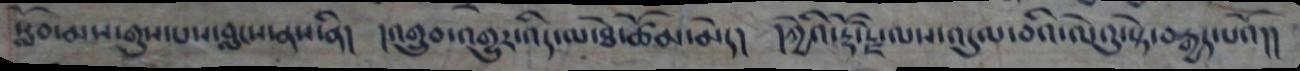སློབ་མས་གུས་པས་བླངས་ནས་ནི། །འགྲུབ་འགྱུར་འདི་ལ་ཐེ་ཚོམ་མེད། །ཀྱེའི་རྡོ་རྗེ་ལས་འདུལ་བའི་ལེའུ་སྟེ་བརྒྱད་པའོ།།
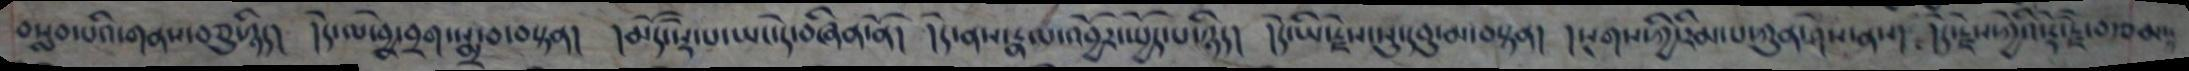བསླབ་པའི་གནས་བཅུ་ཉིད། །དེ་ལ་བྱེ་བྲག་སྨྲ་བ་བསྟན། །མདོ་སྡེ་པ་ཡང་དེ་བཞིན་ནོ། །དེ་ནས་རྣལ་འབྱོར་སྤྱོད་པ་ཉིད། །དེ་ཡི་རྗེས་སུ་དབུ་མ་བསྟན། །སྔགས་ཀྱི་རིམ་པ་ཀུན་ཤེས་ནས། །དེ་རྗེས་ཀྱེའི་རྡོ་རྗེ་བརྩམ
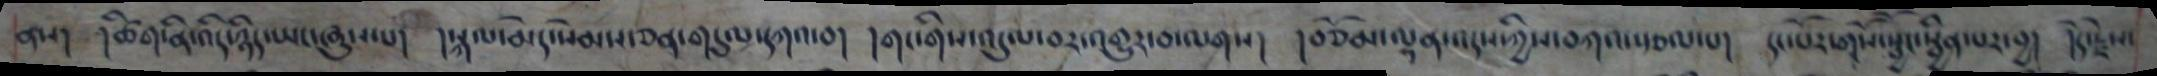ནས། །ཚིག་ནི་འདི་ཉིད་ཡང་ཞུས་པ། །སྐལ་མེད་སེམས་ཅན་གདུལ་དཀའ་བ། །གང་གིས་འདུལ་བར་འགྱུར་བ་ལགས། །བཅོམ་ལྡན་འདས་ཀྱིས་བཀའ་སྩལ་པ། དང་པོར་གསོ་སྦྱོང་སྦྱིན་པར་བྱ། །དེ་རྗེས་
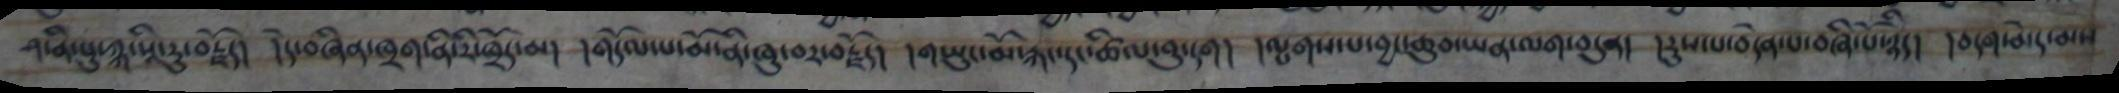ཤ་ནི་པུ་ཀྐ་སཱི་རུ་བརྗོད། །དེ་བཞིན་ཁྲག་ནི་རི་ཁྲོད་མ། །གདོལ་པ་མོ་ནི་ཞུ་བར་བརྗོད། །གཡུང་མོ་རྐང་དང་ཚིལ་བུ་དག། །ལྤགས་པ་བྱང་ཆུབ་ཡན་ལག་བདུན། །རུས་པ་བདེན་པ་བཞི་པོ་ཉིད། །བདག་མེད་མས
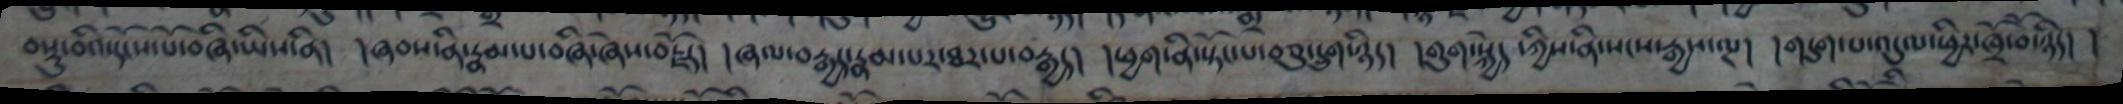བསྡུ་བའི་དངོས་པོ་བཞི་ཡིས་ནི། །ཞབས་ནི་རྣམ་པ་བཞི་ཞེས་བརྗོད། །ཞལ་བརྒྱད་རྣམ་པར་ཐར་པ་བརྒྱད། །ཕྱག་ནི་སྟོང་པ་བཅུ་དྲུག་ཉིད། །གུག་སྐྱེད་ཀྱིས་ནི་སངས་རྒྱས་ལྔ། །གདུག་པ་འདུལ་ཕྱིར་ཁྲོ་བོ་ཉིད། །
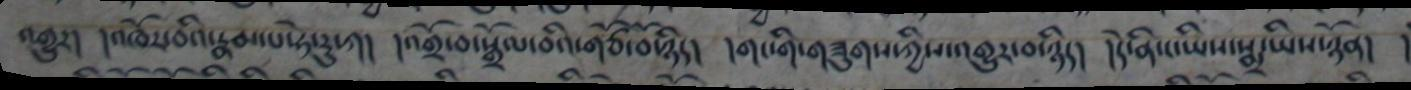འགྱུར། །འཁོར་བའི་རྣམ་པ་ཧེ་རུ་ཀ། །འགྲོ་བ་སྒྲོལ་བའི་གཙོ་བོ་ཉིད། །གང་གི་གཟུགས་ཀྱིས་འགྱུར་བ་ཉིད། །དེ་ནི་ང་ཡིས་སྨྲ་ཡིས་ཉོན། །
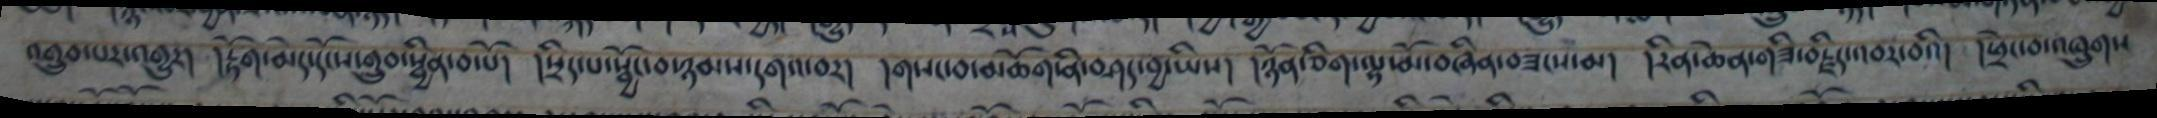འགྲུབ་འགྱུར། །རྟོག་མེད་དངོས་གྲུབ་སྦྱིན་བ་པོ། །སྲིད་པ་སྦྱོང་བ་ཉམས་དགའ་བ། །གསང་བ་མཆོག་ནི་བཤད་བྱ་ཡིས། །ཉོན་ཅིག་ལྷ་མོ་བཞིན་བཟངས་མ། །རིན་ཆེན་གཟི་བརྗིད་འབར་བའི། །ཕྲེང་བ་འཁྲུགས
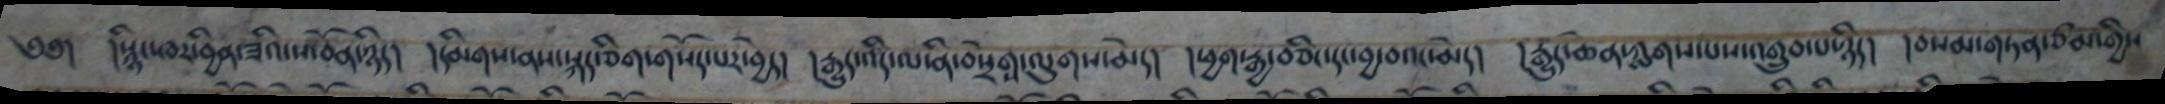༄༅། །སྙིང་ཁར་བྱིན་ཟའི་ས་བོན་ཉིད། །དམིགས་ནས་སྐད་ཅིག་གསོད་པ་བྱེད། །རྒྱུད་འདི་ལ་ནི་བསྲེགས་ལུགས་མེད། །ཕྱག་རྒྱ་བཅིང་དང་བྱ་བའང་མེད། །རྒྱུད་ཆེན་ཀླགས་པས་འགྲུབ་པ་ཉིད། །བསམ་གཏན་ཙམ་གྱིས
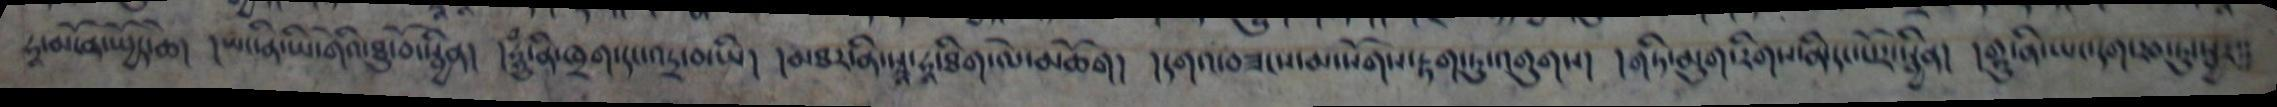ཧཱ་མངོན་སྤྱོད་ཆེ། །ཡང་ནི་ཡེ་གེའི་ཐུ་བོ་སྦྱིན། །ཧཱུཾ་ནི་ཁྲག་དང་འདྲ་བ་ཡི། །མཐར་ནི་སྭཱ་ཧཱ་ཐིག་ལེ་མཆོག། །དགའ་བཟངས་མ་སོགས་རྟག་ཏུ་འགུགས། །གཏི་མུག་རིས་ནི་དང་པོར་སྦྱིན། །གྷུ་ནི་ཡང་དག་རབ་ཏུ་སྦྱར་
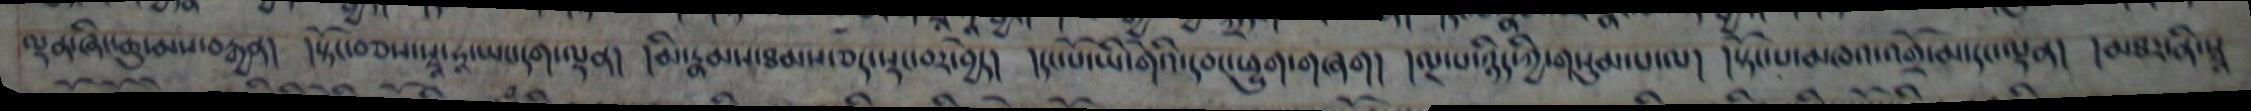ལྡན་ཞིང་ཆུ་མས་བརྒྱན། །སྟོང་བཅས་སྭཱ་ཧཱ་ཡང་དག་ལྡན། །མི་རྣམས་ཐམས་ཅད་སྡང་བར་བྱེད། །དང་པོ་ཡི་གེའི་དབང་ཕྱུག་གཞག། །ལྔ་པ་ཉིད་ཀྱི་གསུམ་པ་ལ། །སྟོང་པ་མཁའ་འགྲོ་མ་དང་ལྡན། །མཐར་ནི་སྭཱ
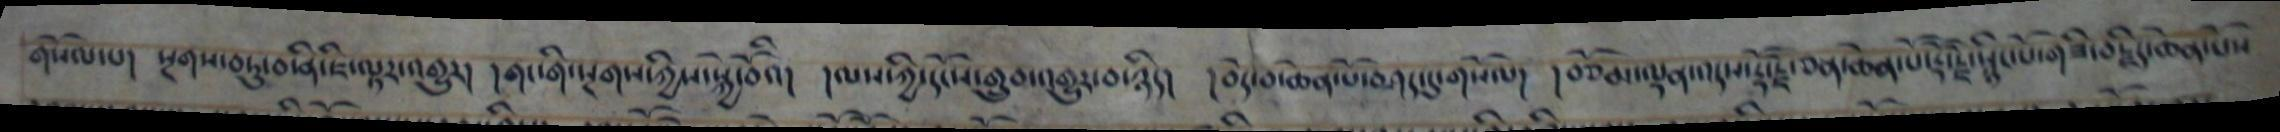གསོལ་པ། སྔགས་བཏུང་བ་ནི་ཇི་ལྟར་འགྱུར། །གང་གི་སྔགས་ཀྱིས་སྐྱེ་བོའི། །ལས་ཀྱི་དངོས་གྲུབ་འགྱུར་བ་ཉིད། །བདེ་བ་ཆེན་པོ་བཤད་དུ་གསོལ། །བཅོམ་ལྡན་འདས་རྡོ་རྗེ་ཅན་ཆེན་པོ་རྡོ་རྗེ་སྙིང་པོ་གཟི་བརྗིད་ཆེན་པོས
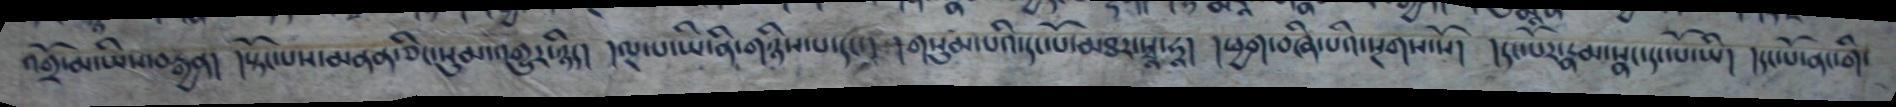འགྲོ་མ་ཡིས་བརྒྱན། །སྟོང་པས་མནན་ཅིང་སུམ་འགྱུར་ཉིད། །ལྔ་པ་ཡི་ནི་གཉིས་པ་དང་། །གསུམ་པའི་དང་པོ་མཐར་སྭཱ་ཧཱ། །ཕྱག་བཞི་པའི་སྔགས་སོ། །དང་པོར་རྣམ་སྣང་དང་པོ་ཡི། །དང་པོ་ནང་གི་
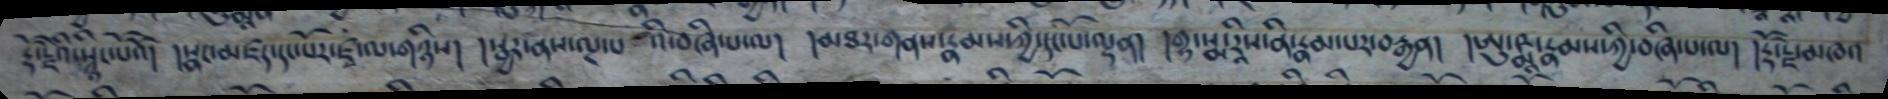རྡོ་རྗེའི་སྙིང་པོའོ། །སྣང་མཛད་དང་པོར་ཛྭ་ལ་གཉིས། །སྦྱར་ནས་ལྔ་པའི་བཞི་པ་ལ། །མཐར་གནས་རྣམས་ཀྱི་དང་པོ་ལྡན། །གྷ་སྨ་རཱིས་ནི་རྣམ་པར་བརྒྱན། །ཨུ་ཥྨཱ་རྣམས་ཀྱི་བཞི་པ་ལ། །རྡོ་རྗེ་མཁའ
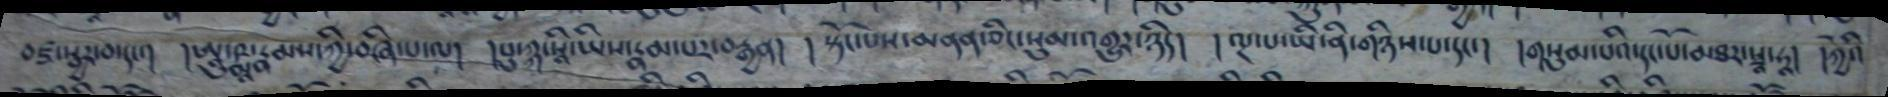བཛྲ་སྦྱར་བ་དང་། ཱུ་ཥྨཱ་རྣམས་ཀྱི་བཞི་པ་ལ། །པུ་ཀྐ་སཱི་ཡིས་རྣམ་པར་བརྒྱན། །སྟོང་པས་མནན་ཅིང་སུམ་འགྱུར་ཉིད། །ལྔ་པ་ཡི་ནི་གཉིས་པ་དང་། །གསུམ་པའི་དང་པོ་མཐར་སྭཱ་ཧཱ། །ཀྱེའི
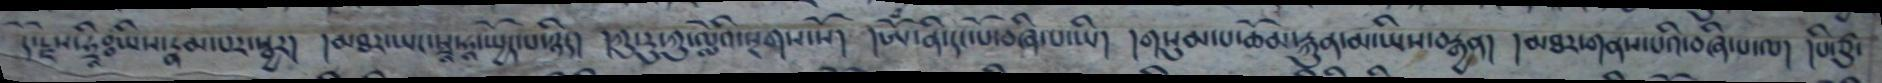དེ་རྗེས་ཧྲཱིཿ ཡིས་རྣམ་པར་སྦྱར། །མཐར་ཡང་སྭཱ་ཧཱ་སྤྱོད་པ་ཉིད། །ཀུ་རུ་ཀུ་ལླེའི་སྔགས་སོ། །ཨོཾ་ནི་དང་པོ་བཞི་པ་ཡི། །གསུམ་པ་ཆོམ་རྐུན་མ་ཡིས་བརྒྱན། །མཐར་གནས་པའི་བཞི་པ་ལ། །པི་ཙུ་
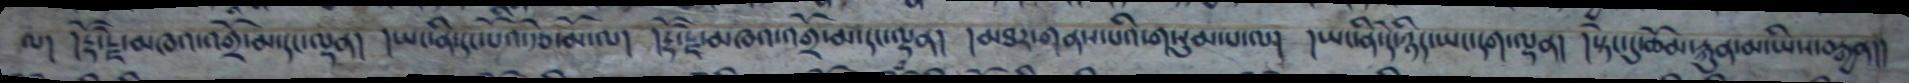ལ། །རྡོ་རྗེ་མཁའ་འགྲོ་མ་དང་ལྡན། །ཡང་ནི་དང་པོའི་རྩེ་མོ་ལ། །རྡོ་རྗེ་མཁའ་འགྲོ་མ་དང་ལྡན། །མཐར་གནས་པའི་གསུམ་པ་ལ། །ཡང་ནི་དེ་ཉིད་ཡང་དག་ལྡན། །སྟེང་དུ་ཆོམ་རྐུན་མ་ཡིས་བརྒྱན།།
